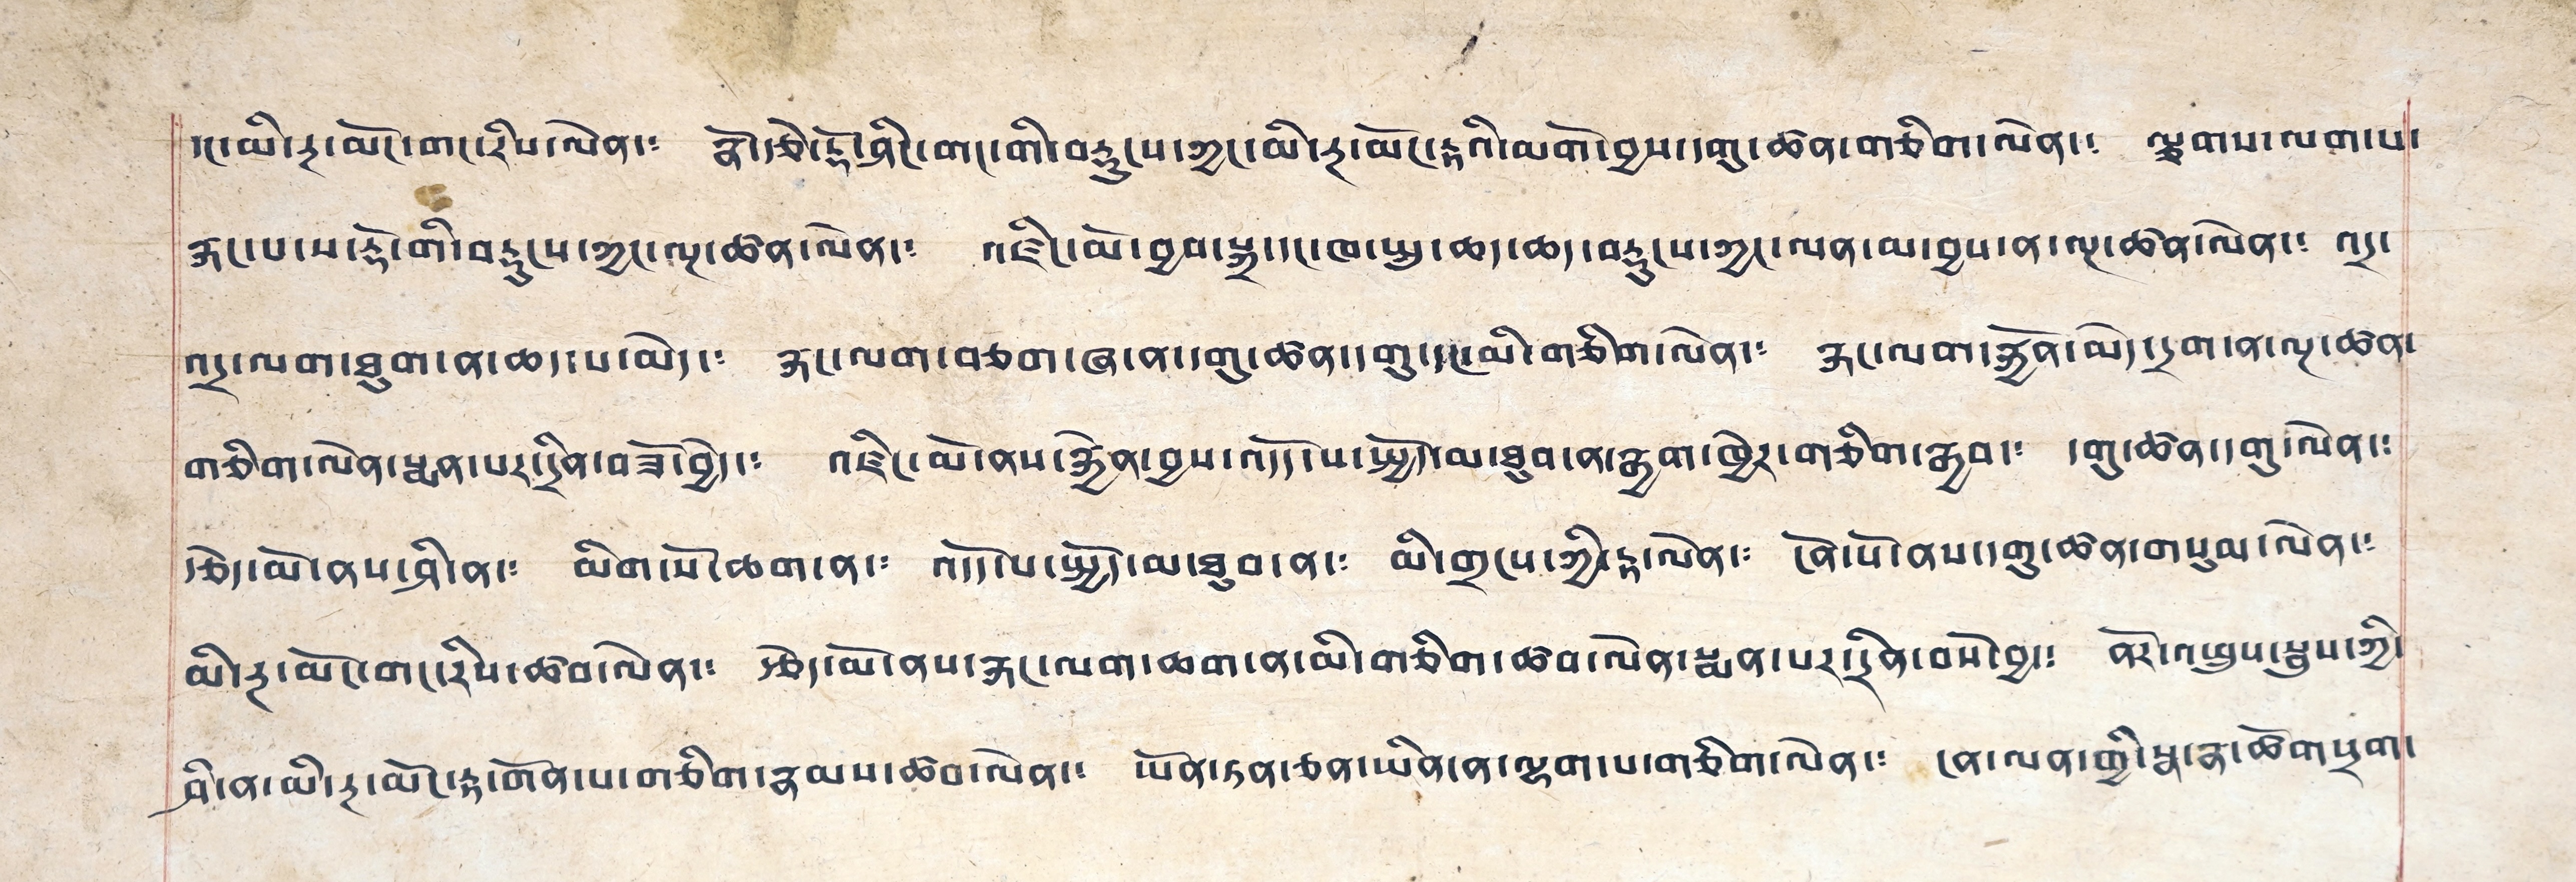དང་མི་རྔ་མོང་གང་རིས་ལེན་༴ རྣོ་རྩེ་རྡོ་ཤིང་གང་གི་བརྡུངས་ཀྱང་མི་རྔ་མོང་རྟའི་མགོ་བྱས་དགུ་ཚན་གཅིག་ལེན་༴ ལྕགས་ལག་པ་
རྐང་པ་ས་རྡོ་གི་བརྡུངས་ཀྱང་ལྔ་ཚན་ལེན་༴ འཛིང་མོ་བྱབ་སྐྲ་དང་ཁ་སྤུ་ཆད་ཆད་བརྡུངས་ཀྱང་ལན་མ་བྱས་ན་ལྔ་ཚན་ལེན་༴ འདྲ་
འདྲ་ལག་ཐུག་ན་ཆད་པ་མེད་༴ རྐང་ལག་བཅག་ཞ་ན་དགུ་ཚན་དགུ་དང་མི་གཅིག་ལེན་༴ རྐང་ལག་རྐྱོན་མེད་དྲག་ན་ལྔ་ཚན་
གཅིག་ལེན་སྨན་པར་དྲིན་བཟོ་བྱེད་༴ འཛིང་མོ་ནས་རྐྱེན་བྱས་འདོད་པ་སྤྱོད་མ་ཐུབ་ན་རྒྱག་ཁྱེར་གཅིག་རྒྱབ་༴ དགུ་ཚན་དགུ་ལེན་༴
རྩེད་མོ་ནས་ཤི་ན་༴ མིག་སོ་ཆག་ན་༴ འདོད་པ་སྤྱོད་མ་ཐུབ་ན་༴ མི་གྲངས་ཀྱི་རྟ་ལེན་༴ ངོན་པོ་ནས་དགུ་ཚན་གསུམ་ལེན་༴
མི་རྔ་མོང་གང་རིས་ཚབ་ལེན་༴ རྩེད་མོ་ནས་རྐང་ལག་ཆག་ན་མི་གཅིག་ཆབ་ལེན་སྨན་པར་དྲིན་བསོ་བྱ་༴ ནོར་འཕྲུས་སྦུས་ཀྱི་
ཤི་ན་མི་རྔ་མོང་རྟ་གོན་པ་གཅིག་རྣམས་ཆབ་ལེན་༴ ཡོན་ཏན་ཅན་ཡིན་ན་ལྷག་པ་གཅིག་ལེན་༴ ངན་ལན་གྱི་སྣ་རྣ་ཆོག་སྲག་
